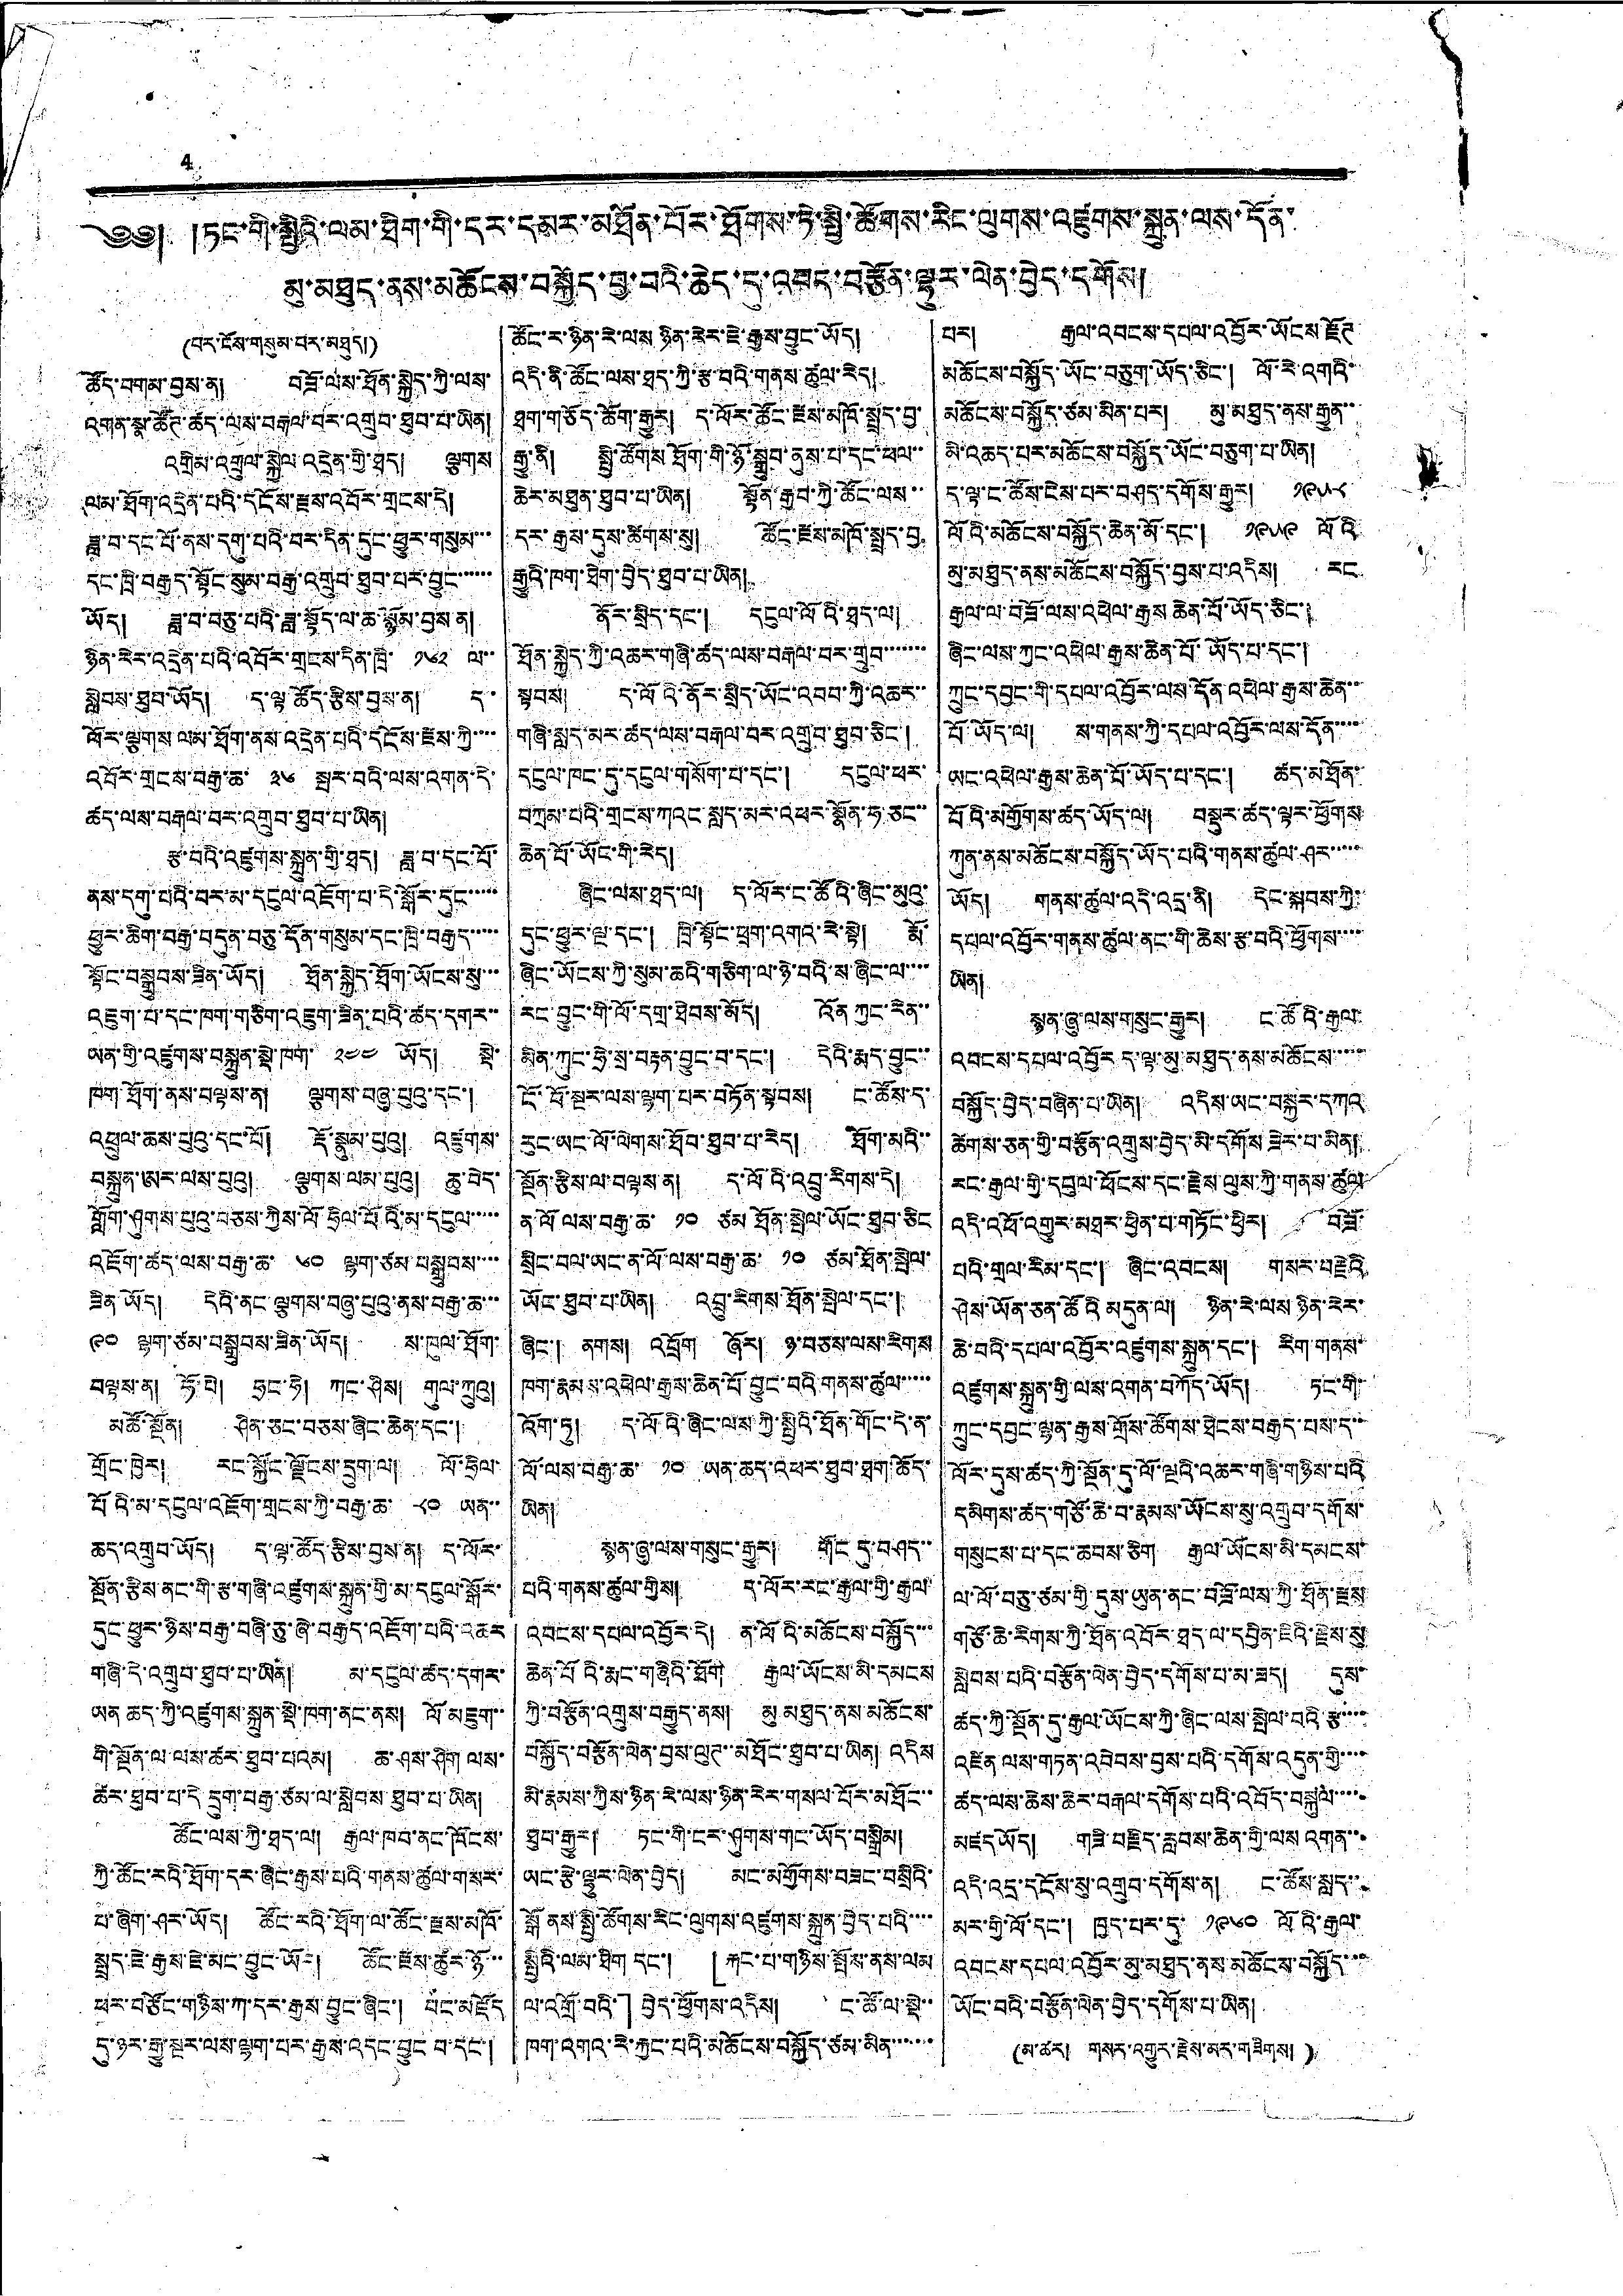4
༄༅། །ཏང་གི་སྤྱིའི་ལམ་ཐིག་གི་དར་དམར་མཐོན་པོར་ཐོགས་ཏེ་སྤྱི་ཚོགས་རིང་ལུགས་འཛུགས་སྐྲུན་ལས་དོན་
མུ་མཐུད་ནས་མཆོངས་བསྐྱོད་བྱ་བའི་ཆེད་དུ་འབད་བརྩོན་ལྷུར་ལེན་བྱེད་དགོས།
(པར་ངོས་གསུམ་པར་མཐུད།)
ཚོད་བགམ་བྱས་ན། བཟོ་ལས་ཐོན་སྐྱེད་ཀྱི་ལས་
འགན་སྣ་ཚོཊ་ཚད་ལས་བརྒལ་བར་འགྲུབ་ཐུབ་པ་ཡིན།
འགྲིམ་འགྲུལ་སྐྱེལ་འདྲེན་གྱི་ཐད། ལྕགས
ལམ་ཐོག་འདྲེན་པའི་དངོས་རྫས་འབོར་གྲངས་དེ།
ཟླ་བ་དང་པོ་ནས་དགུ་པའི་བར་དིན་དུང་ཕྱུར་གསུམ་་་
དང་ཁྲི་བརྒྱད་སྟོང་སུམ་བརྒྱ་འགྲུབ་ཐུབ་པར་བྱུང་་་་་་
ཡོད། ཟླ་བ་བཅུ་པའི་ཟླ་སྟོད་ལ་ཆ་སྙོམ་བྱས་ན།
ཉིན་རེར་འདྲེན་པའི་འབོར་གྲངས་དིན་ཁྲི་ ༡༦༢ ལ་་
སླེབས་ཐུབ་ཡོད། ད་ལྟ་ཚོད་རྩིས་བྱས་ན། ད་
ལོར་ལྕགས ལམ་ཐོག་ནས་འདྲེན་པའི་དངོས་རྫས་ཀྱི་་་་
འབོར་གྲངས་བརྒྱ་ཆ་ ༣༦ སྦར་བའི་ལས་འགན་དེ་
ཚད་ལས་བརྒལ་བར་འགྲུབ་ཐུབ་པ་ཡིན།
རྩ་བའི་འཛུགས་སྐྲུན་གྱི་ཐད། ཟླ་བ་དང་པོ་
ནས་དགུ་པའི་བར་མ་དངུལ་འཇོག་པ་དེ་སྒོར་དུང་་་་་
ཕྱུར་ཆིག་བརྒྱ་བདུན་བཅུ་དོན་གསུམ་དང་ཁྲི་བརྒྱད་་་་་
སྟོང་བསྒྲུབས་ཟིན་ཡོད། ཐོན་སྐྱེད་ཐོག་ཡོངས་སུ་་་
འཇུག་པ་དང་ཁག་གཅིག་འཇུག་ཟིན་པའི་ཚད་དགར་་
ཡན་གྱི་འཛུགས་བསྐྲུན་སྡེ་ཁག་ ༢༤༤ ཡོད། སྡེ་
ཁག་ཐོག་ནས་བལྟས་ན། ལྕགས་བཞུ་པུའུ་དང་།
འཕྲུལ་ཆས་པུའུ་དང་པོ། རྡོ་སྣུམ་པུའུ། འཛུགས་
བསྐྲུན་ཨར་ལས་པུའུ། ལྕགས་ལམ་པུའུ། ཆུ་བེད་
གློག་ཤུགས་པུའུ་བཅས་ཀྱིས་ལོ་ཧྲིལ་པོའི་མ་དངུལ་་་་་
འཇོག་ཚད་ལས་བརྒྱ་ཆ་ ༦༠ ལྷག་ཙམ བསྒྲུབས་་་་
ཟིན་ཡོད། དེའི་ནང ལྕགས་བཞུ་པུའུ་ནས་བརྒྱ་ཆ་་་
༩༠ ལྷག་ཙམ་བསྒྲུབས་ཟིན་ཡོད། ས་ཁུལ་ཐོག་
བལྟས་ན། ཧོ་པེ། ཧྲང་ཧེ། ཀང་ཤིས། གུལ་ཀྲུའུ།
མཚོ་སྔོན། ཤིན་ཅང་བཅས་ཞིང་ཆེན་དང་།
གྲོང་ཁྱེར། རང་སྐྱོང་ལྗོངས་དྲུག་ལ། ལོ་ཧྲིལ་
པོའི་མ་དངུལ་འཇོག་གྲངས་ཀྱི་བརྒྱ་ཆ་ ༨༠ ཡན་་
ཆད་འགྲུབ་ཡོད། ད་ལྟ་ཚོད་རྩིས་བྱས་ན། ད་ལོར་
སྔོན་རྩིས་ནང་གི་རྩ་གཞི་འཛུགས་སྐྲུན་གྱི་མ་དངུལ་སྒོར་
དུང་ཕྱུར་ཉིས་བརྒྱ་བཞི་ཅུ་ཞེ་བརྒྱད་འཇོག་པའི་འཆར
གཞི་དེ་འགྲུབ་ཐུབ་པ་ཡིན། མ་དངུལ་ཚད་དགར་
ཡན ཆད་ཀྱི་འཛུགས་སྐྲུན་སྡེ་ཁག་ནང་ནས། ལོ མཇུག་་
གི་སྔོན་ལ་ལས་ཚར་ཐུབ་པའམ། ཆ་ཤས་ཤིག ལས་
ཚར་ཐུབ་པ་དེ་དྲུག་བརྒྱ་ཙམ་ལ་སླེབས ཐུབ་པ་ཡིན།
ཚོང་ལས་ཀྱི་ཐད་ལ། རྒྱལ་ཁབ་ནང་ཁོངས་
ཀྱི་ཚོང་རའི་ཐོག་དར་ཞིང་རྒྱས་པའི་གནས་ཚུལ་གསར་
པ་ཞིག་ཤར་ཡོད། ཚོང་རའི་ཐོག་ལ་ཚོང་རྫས་མཁོ་
སྤྲད་ཇེ་རྒྱས་ཇེ་མང་བྱུང་ཡོད། ཚོང་རྫས་ཚུར་ཉོ་་་
ཕར་བཙོང་གཉིས་ཀ་དར་རྒྱས་བྱུང་ཞིང་། པང་མཛོད
དུ་ཉར་རྒྱུ་སྔར་ལས་ལྷག་པར་རྒྱས་འདང་བྱུང བ་དང་།
ཚོང་ར་ཉིན་རེ་ལས ཉིན་རེར་ཇེ་རྒྱས་བྱུང་ཡོད།
འདི་ནི་ཚོང་ལས་ཐད་ཀྱི་རྩ་བའི་གནས་ཚུལ་རེ།
ཐག་གཅོད་ཆོག་རྒྱུར། ད་ལོར་ཚོང་རྫས་མཁོ་སྤྲད་བྱ་
རྒྱུ་ནི། སྤྱི་ཚོགས ཐོག་གི་ཉོ་སྒྲུབ་ནུས་པ་དང་ཕལ་་
ཆེར་མཐུན་ཐུབ་པ་ཡིན། སྟོན་རྒྱབ་ཀྱི་ཚོང་ལས་་
དར་རྒྱས་དུས་ཚིགས་སུ། ཚོང་རྫས་མཁོ་སྤྲད་བྱ
རྒྱུའི་ཁག་ཐེག་བྱེད་ཐུབ་པ་ཡིན།
ནོར་སྲིད་དང་། དངུལ་ལོའི་ཐད་ལ།
ཐོན་སྐྱེད་ཀྱི་འཆར་གཞི་ཚད་ལས་བརྒལ་བར་གྲུབ་་་་་་་
སྟབས། ད་ལོའི་ནོར་སྲིད་ཡོང་འབབ་ཀྱི་འཆར་་
གཞི་སླད་མར་ཚད་ལས་བརྒལ་བར་འགྲུབ་ཐུབ་ཅིང་།
དངུལ་ཁང་དུ་དངུལ་གསོག་པ་དང་། དངུལ་ཕར་
བཀྲམ་པའི་གྲངས་ཀའང་སླད་མར་འཕར་སྣོན་ཧ་ཅང་་
ཆེན་པོ་ཡོང་གི་རེད།
ཞིང་ལས་ཐད་ལ། ད་ལོར་ང་ཚོའི་ཞིང་མུའུ་
དུང་ཕྱུར་ལྔ་དང་། ཁྲི་སྟོང་ཕྲག་འགའ་རེ་སྟེ། རྨོ་
ཞིང་ཡོངས་ཀྱི་སུམ་ཆའི་གཅིག་ལ་ཉེ་བའི་ས་ཞིང་ལ་་་་
རང་བྱུང་གི་ལོ་དགྲ་ཐེབས་མོད། འོན ཀྱང་རེན་་
མིན་ཀུང་ཧྲེ་སྲ་བརྟན་བྱུང་བ་དང་། དེའི་རྨད་བྱུང་་
ངོ་བོ་སྔར་ལས་ལྷག་པར་བཏོན་སྟབས། ང་ཚོས་ད་
རུང་ཡང་ལོ་ལེགས་ཐོབ་ཐུབ་པ་རེད། ཐོག་མའི་་
སྔོན་རྩིས་ལ་བལྟས་ན། ད་ལོའི་འབྲུ་རིགས་དེ།
ན་ལོ ལས་བརྒྱ་ཆ་ ༡༠ ཙམ ཐོན་སྤེལ་ཡོང་ཐུབ་ཅིང
སྲིང་བལ་ཡང་ན་ལོ་ལས་བརྒྱ་ཆ་ ༡༠ ཙམ་ཐོན་སྤེལ་
ཡོང་ཐུབ་པ་ཡིན། འབྲུ་རིགས་ཐོན་སྤེལ་དང་།
ཞིང་། ནགས། འབྲོག ཞོར། ཉ་བཅས་ལས་རིགས
ཁག་རྣམས་འཕེལ་རྒྱས་ཆེན་པོ་བྱུང་བའི་གནས་ཚུལ་་་་་
འོག་ཏུ། ད་ལོའི་ཞིང་ལས་ཀྱི་སྤྱིའི་ཐོན་གོང་དེ་ན་
ལོ་ལས་བརྒྱ་ཆ་ ༡༠ ཡན་ཆད་འཕར་ཐུབ་ཐག་ཆོད་
ཡིན།
སྙན་ཞུ་ལས་གསུང་རྒྱུར། གོང དུ་བཤད་་
པའི་གནས་ཚུལ་གྱིས། ད་ལོར་རང་རྒྱལ་གྱི་རྒྱལ་
འབངས་དཔལ་འབྱོར་དེ། ན་ལོའི་མཆོངས་བསྐྱོད་་་
ཆེན་པོའི་རྨང་གཞིའི་ཐོག རྒྱལ་ཡོངས་མི་དམངས
ཀྱི་བརྩོན་འགྲུས་བརྒྱུད་ནས། མུ མཐུད་ནས་མཆོངས་
བསྐྱོད་བརྩོན་ལེན་བྱས་ལུཊ་་མཐོང་ཐུབ་པ་ཡིན། འདིས
མི་རྣམས་ཀྱིས་ཉིན་རེ་ལས་ཉིན་རེར་གསལ་པོར་མཐོང་་
ཐུབ་རྒྱུར། ཏང་གི་ངར་ཤུགས་གང་ཡོད་བསྒྲིམ།
ཡང་རྩེ་ལྷུར་ལེན་བྱེད། མང་མགྱོགས་བཟང་བསྲིའི་
སྒོ ནས་སྤྱི་ཚོགས་རིང་ལུགས་འཛུགས་སྐྲུན་བྱེད་པའི་་་་
སྤྱིའི་ལམ་ཐིག དང་། 「རྐང་པ་གཉིས་སྤོས་ནས་ལམ
ལ་འགྲོ་བའི་」བྱེད་ཕྱོགས་འདིས། ང་ཚོ་ལ་སྡེ་་
ཁག་འགའ་རེ་རྐྱང་པའི་མཆོངས་བསྐྱོད་ཙམ་མིན་་་་་་་
པར། རྒྱལ་འབངས་དཔལ་འབྱོར་ཡོངས་རྫོཊ
མཆོངས་བསྐྱོད་ཡོང་བཅུག་ཡོད་ཅིང་། ལོ་རེ་འགའི་
མཆོངས་བསྐྱོད་ཙམ་མིན་པར། མུ་མཐུད་ནས་རྒྱུན་་
མི་འཆད་པར་མཆོངས་བསྐྱོད་ཡོང་བཅུག་པ་ཡིན།
ད་ལྟ་ང་ཚོས་ངེས་པར་བཤད་དགོས་རྒྱུར། ༡༩༥༨
ལོའི་མཆོངས་བསྐྱོད་ཆེན་མོ་དང་། ༡༩༥༩ ལོའི་
མུ་མཐུད་ནས་མཆོངས་བསྐྱོད་བྱས་པ་འདིས། རང་
རྒྱལ་ལ་བཟོ་ལས་འཕེལ་རྒྱས ཆེན་པོ་ཡོད་ཅིང་།
ཞིང་ལས་ཀྱང་འཕེལ་རྒྱས་ཆེན་པོ་ཡོད་པ་དང་།
ཀྲུང་དབྱང་གི་དཔལ་འབྱོར་ལས་དོན་འཕེལ་རྒྱས་ཆེན་་
པོ་ཡོད་ལ། ས་གནས་ཀྱི་དཔལ་འབྱོར་ལས་དོན་་་་
ཡང་འཕེལ་རྒྱས་ཆེན་པོ་ཡོད་པ་དང་། ཚད་མཐོན་
པོའི་མགྱོགས་ཚད་ཡོད་ལ། བསྡུར་ཚད་ལྟར་ཕྱོགས
ཀུན་ནས་མཆོངས་བསྐྱོད་ཡོད་པའི་གནས་ཚུལ་ཤར་་་་་
ཡོད། གནས་ཚུལ་འདི་འདྲ་ནི། དེང་སྐབས་ཀྱི་
དཔལ་འབྱོར་གནས་ཚུལ་ནང་གི་ཆེས་རྩ་བའི་ཕྱོགས་་་་
ཡིན།
སྙན་ཞུ་ལས་གསུང་རྒྱུར། ང་ཚོའི་རྒྱལ་
འབངས་དཔལ་འབྱོར ད་ལྟ་མུ་མཐུད་ནས་མཆོངས་་་་་
བསྐྱོད་བྱེད་བཞིན་པ་ཡིན། འདིས་ཡང་བསྐྱར་དགའ
ཚེགས་ཅན་གྱི་བརྩོན་འགྲུས་བྱེད་མི་དགོས ཟེར་བ་མིན།
རང་རྒྱལ་གྱི་དབུལ་ཕྱོངས་དང་རྗེས་ལུས་ཀྱི་གནས་ཚུལ
འདི་འཕོ་འགྱུར་མཐར་ཕྱིན་པ་གཏོང་ཕྱིར། བཟོ་
པའི་གྲལ་རིམ་དང་། ཞིང་འབངས། གསར་བརྗེའི
ཤེས་ཡོན་ཅན་ཚོའི མདུན་ལ། ཉིན་རེ་ལས ཉིན་རེར་
ཆེ་བའི་དཔལ་འབྱོར་འཛུགས་སྐྲུན་དང་། རིག གནས་
འཛུགས་སྐྲུན་གྱི་ལས་འགན་བཀོད་ཡོད། རང་གི་
ཀྲུང་དབྱང་ལྷན་རྒྱས་གྲོས་ཚོགས་ཐེངས་བརྒྱད་པས་ད་་
ལོར་དུས་ཚད་ཀྱི་སྔོན་དུ་ལོ་ལྔའི་འཆར་གཞི་གཉིས་པའི
དམིགས་ཚད་གཙོ་ཆེ་བ་རྣམས་ཡོངས་སུ་འགྲུབ་དགོས་
གསུངས་པ་དང་ཆབས་ཅིག རྒྱལ་ཡོངས་མི་དམངས་
ལ་ལོ་བཅུ་ཙམ་གྱི་དུས་ཡུན་ནང་བཟོ་ལས་ཀྱི་ཐོན་རྫས
གཙོ་ཆེ་རིགས་ཀྱི་ཐོན་འབོར་ཐད་ལ་དབྱིན་ཇིའི་རྗེས་སུ
སླེབས་པའི་བརྩོན་ལེན་བྱེད་དགོས་པ་མ་ཟད། དུས་
ཚད་ཀྱི་སྔོན་དུ་རྒྱལ་ཡོངས་ཀྱི་ཞིང་ལས་སྤེལ་བའི་རྩ་་་་
འཛིན ལས་གཏན་འབེབས་བྱས་པའི་དགོས་འདུན་གྱི་་་་
ཚད་ལས་ཆེས་ཆེར་བརྒལ་དགོས་པའི་འབོད་བསྐུལ་་་་
མཛད ཡོད། གཟི་བརྗིད་རླབས་ཆེན་གྱི་ལས འགན་་
འདི་འདྲ་དངོས་སུ་འགྲུབ་དགོས་ན། ང་ཚོས་སླད་་
མར་གྱི་ལོ་དང་། ཁྱད་པར་དུ་ ༡༩༦༠ ལོའི་རྒྱལ་
འབངས་དཔལ་འབྱོར་མུ་མཐུད་ནས་མཆོངས་བསྐྱོད་་་
ཡོང་བའི་བརྩོན་ལེན་བྱེད་དགོས་པ་ཡིན།
(མ་ཚར། གསར་འགྱུར་རྗེས་མར་གཟིགས།)
